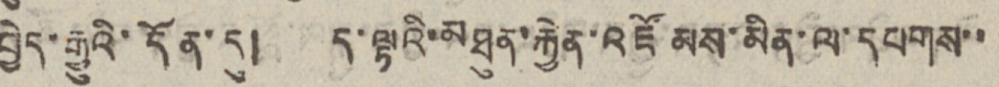བྱེད་རྒྱུའི་དོན་དུ། ད་ལྟའི་མཐུན་རྐྱེན་འཛོམས་མིན་ལ་དཔགས་་
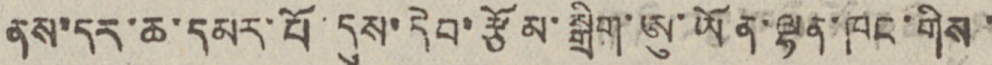ནས་དར་ཆ་དམར་པོ་དུས་དེབ་རྩོམ་སྒྲིག་ཨུ་ཡོན་ལྷན་ཁང་གིས་
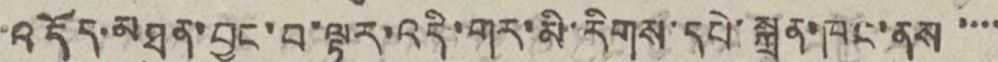འདོད་མཐུན་བྱུང་བ་ལྟར་འདི་གར་མི་རིགས་དཔེ་སྐྲུན་ཁང་ནས་་་་
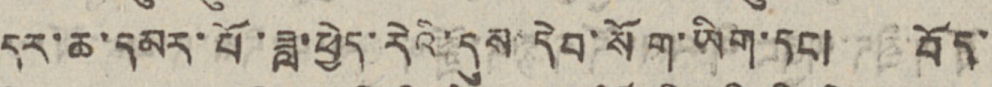དར་ཆ་དམར་པོ་ཟླ་ཕྱེད་རེའི་དུས་དེབ་སོག་ཡིག་དང། བོད་
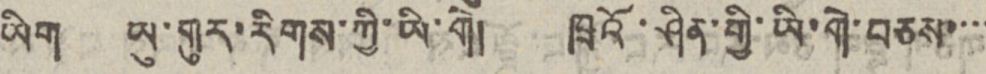ཡིག ཡུ་གུར་རིགས་ཀྱི་ཡི་གེ། ཁྲའོ་ཤིན་གྱི་ཡི་གེ་བཅས་་་་
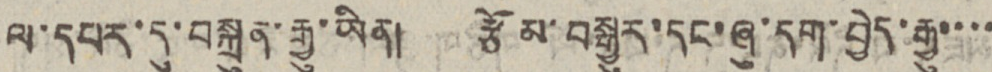ལ་དཔར་དུ་བསྐྲུན་རྒྱུ་ཡིན། རྩོམ་བསྒྱུར་དང་ཞུ་དག་བྱེད་རྒྱུ་་་་
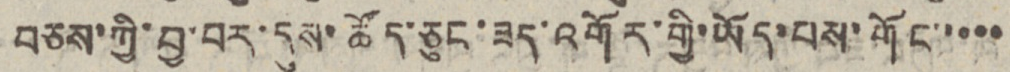བཅས་ཀྱི་བྱ་བར་དུས་ཚོད་ཅུང་ཟད་འགོར་གྱི་ཡོད་པས་གོང་་་་་
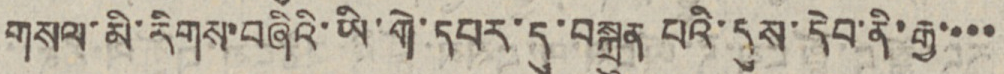གསལ་མི་རིགས་བཞིའི་ཡི་གེ་དཔར་དུ་བསྐྲུན པའི་དུས་དེབ་ནི་རྒྱ་་་་
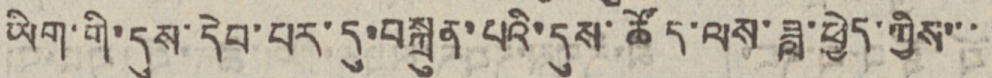ཡིག་གི་དུས་དེབ་པར་དུ་བསྐྲུན་པའི་དུས་ཚོད་ལས་ཟླ་ཕྱེད་ཀྱིས་་་
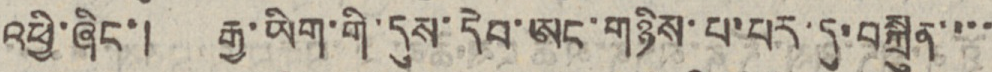འཕྱི་ཞིང་། རྒྱ་ཡིག་གི་དུས་དེབ་ཨང་གཉིས་པ་པར་དུ་བསྐྲུན་་་་
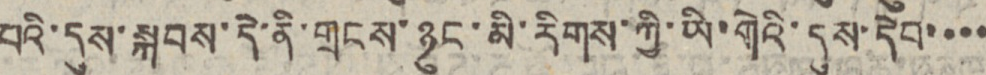པའི་དུས་སྐབས་དེ་ནི་གྲངས་ཉུང་མི་རིགས་ཀྱི་ཡི་གེའི་དུས་དེབ་་་་
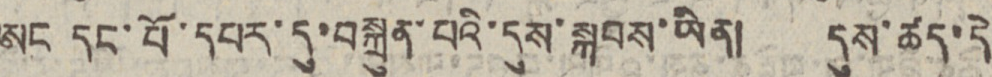ཨང དང་པོ་དཔར་དུ་བསྐྲུན་པའི་དུས་སྐབས་ཡིན། དུས་ཚད་དེ
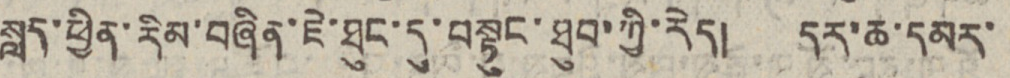སླད་ཕྱིན་རིམ་བཞིན་ཇེ་ཐུང་དུ་བསྟུང་ཐུབ་ཀྱི་རེད། དར་ཆ་དམར་
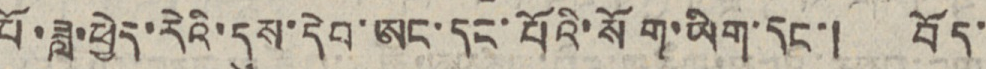པོ་ཟླ་ཕྱེད་རེའི་དུས་དེབ་ཨང་དང་པོའི་སོག་ཡིག་དང་། བོད་
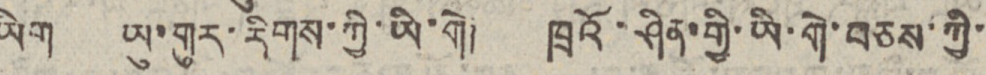ཡིག ཨུ་གུར་རིགས་ཀྱི་ཡི་གེ། ཁྲའོ་ཤིན་གྱི་ཡི་གེ་བཅས་ཀྱི་
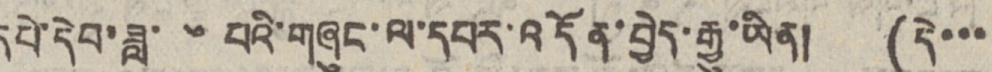དཔེ་དེབ་ཟླ་ ༦ པའི་གཞུང་ལ་དཔར་འདོན་བྱེད་རྒྱུ་ཡིན། (དེ་་་
